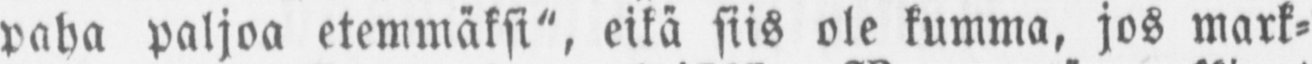paha paljoa etemmäksi", eikä siis ole kumma, jos mark-
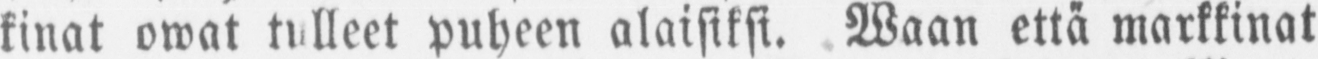kinat owat tulleet puheen alaisiksi. Waan että markkinat
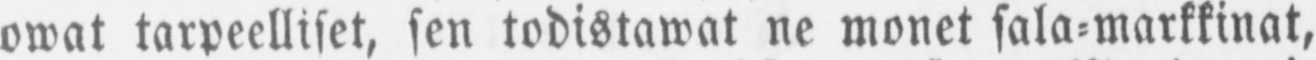owat tarpeelliset, sen todistawat ne monet sala-markkinat,
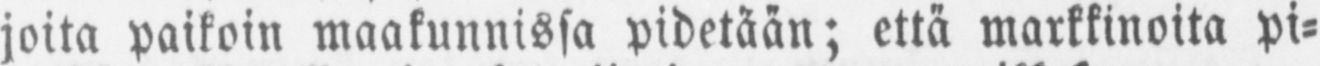joita paikoin maakunnissa pidetään; että markkinoita pi-
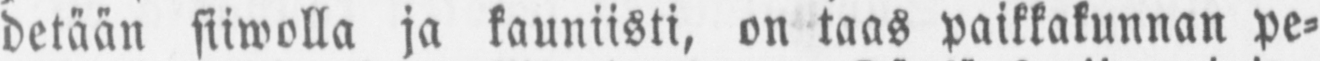detään siiwolla ja kauniisti, on taas paikkakunnan pe-
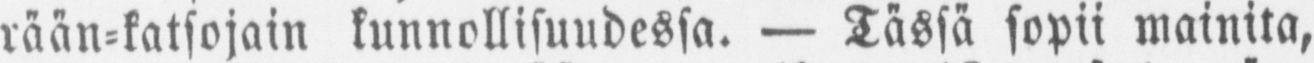rään-katsojain kunnollisuudessa. — Tässä sopii mainita,
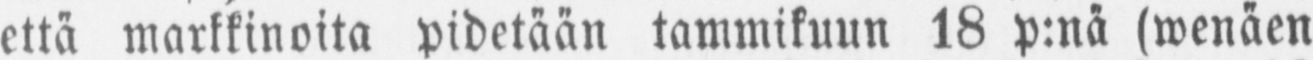että markkinoita pidetään tammikuun 18 p:nä (wenäen
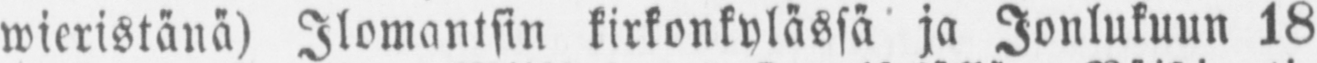wieristänä) Ilomantsin kirkonkylässä ja Jonlukuun 18
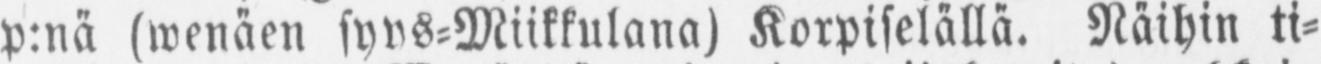p:nä (wenäen syys-Miikkulana) Korpiselällä. Näihin ti-
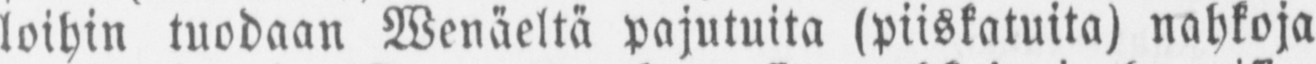loihin tuodaan Wenäeltä pajutuita (piiskatuita) nahkoja
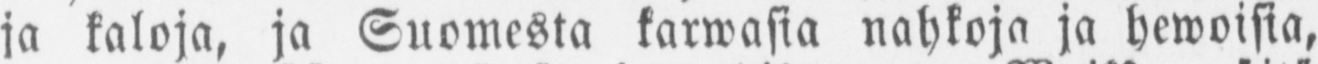ja kaloja, ja Suomesta karwasia nahkoja ja hewoisia,
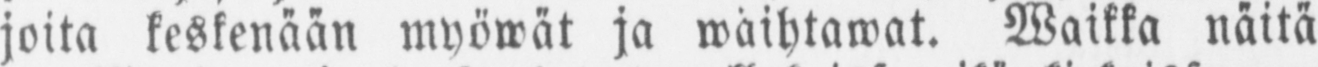joita keskenään myöwät ja waihtawat. Waikka näitä
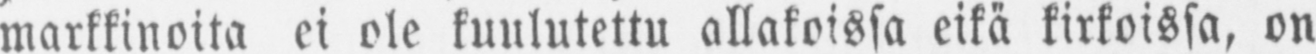markkinoita ei ole kuulutettu allakoissa eikä kirkoissa, on
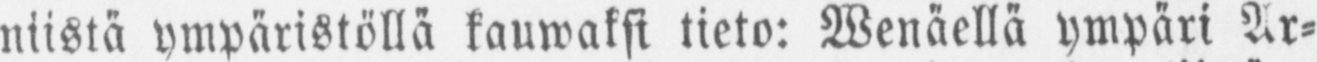niistä ympäristöllä kauwaksi tieto: Wenäellä ympäri Ar-
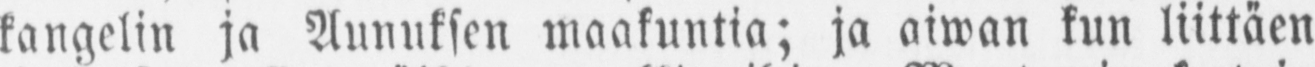kangelin ja Aunuksen maakuntia; ja aiwan kun liittäen
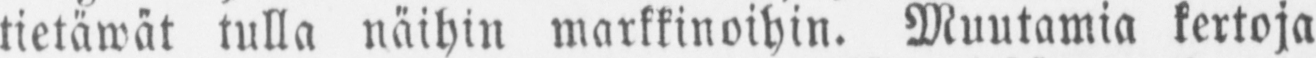tietäwät tulla näihin markkinoihin. Muutamia kertoja
